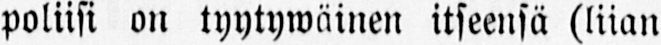poliisi on tyytywäinen itseensä (liian
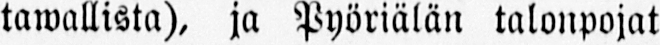tawallista), ja Pyöriälän talonpojat
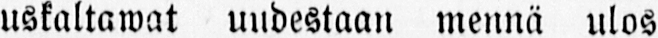uskaltawat uudestaan mennä ulos
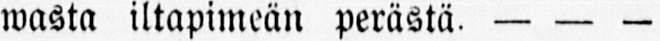wasta iltapimeän perästä. — — —
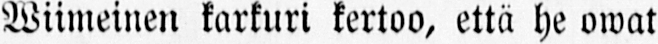Wiimeinen karkuri kertoo, että he owat
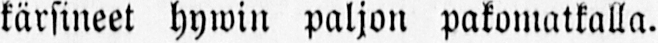kärsineet hywin paljon pakomatkalla.
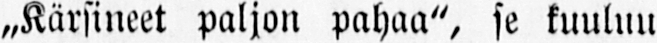„Kärsineet paljon pahaa", se kuuluu
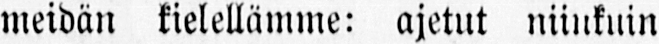meidän kielellämme: ajetut niinkuin
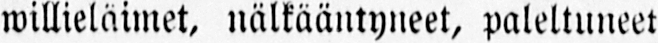willieläimet, nälkääntyneet, paleltuneet
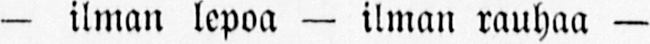— ilman lepoa — ilman rauhaa —
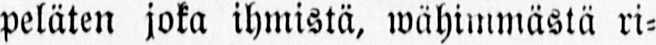peläten joka ihmistä, wähimmäslä ri-
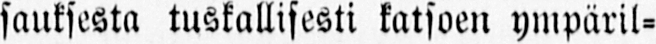sauksesta tuskallisesti katsoen ympäril-
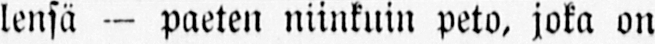lensä — paeten niinkuin peto, joka on
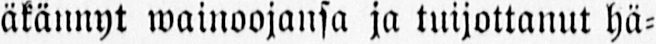äkännyt wainoojansa ja tuijottanut hä-
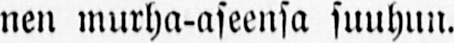nen murha-aseensa suuhun.
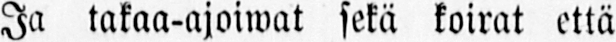Ja takaa-ajoiwat sekä koirat että
